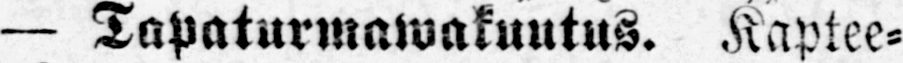— Tapaturmawakuutus. Kaptee-
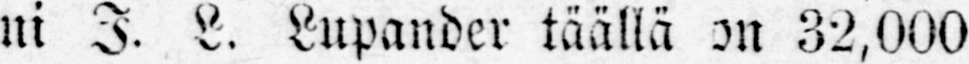ni J. L. Lupander täällä on 32,000
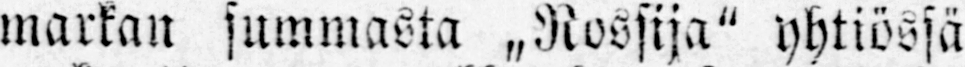markan summasta „Nossija" yhtiössä
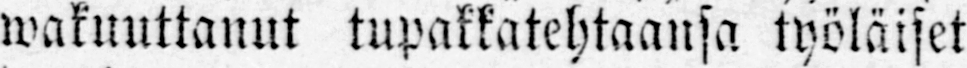wakuuttanut tupakkatehtaansa työläiset
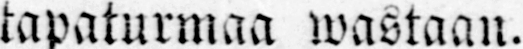tapaturmaa wastaan.
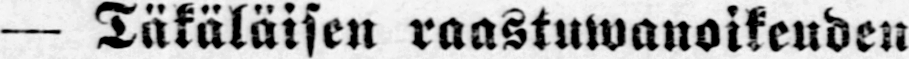— Täkäläisen raastuwanoikeuden
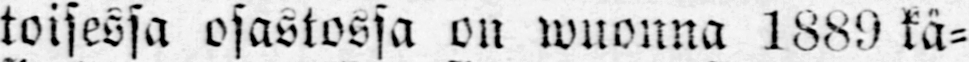toisessa osastossa on wuonna 1889 kä-
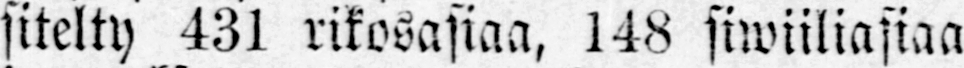sitelty 431 rikosasiaa, 148 siwiiliasiaa
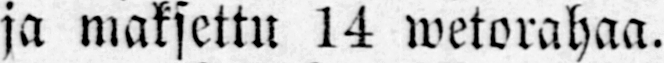ja maksettu 14 wetorahaa.
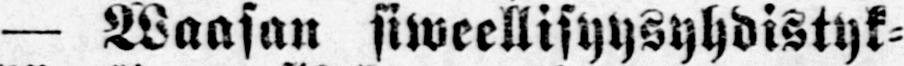— Waasan siweellisyysyhdistyk-
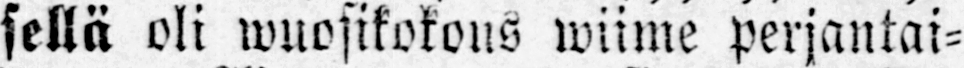sellä oli wuosikokous wiime perjantai-
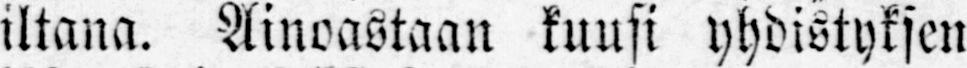iltana. Ainoastaan kuusi yhdistyksen
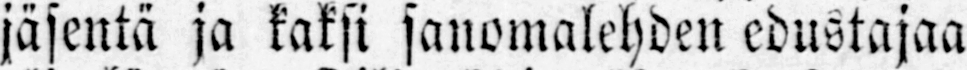jäsentä ja kaksi sanomalehden edustajaa
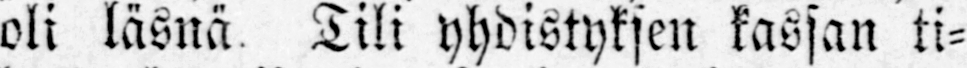oli läsnä Tili yhdistyksen kassan ti-
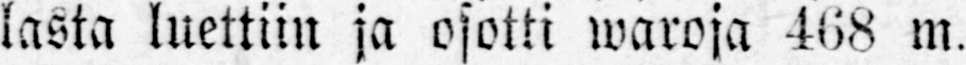lasta luettiin ja osotti waroja 468 m.
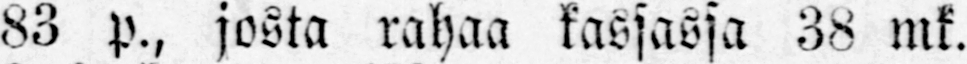83 p., josta rahaa kassassa 38 mk.
